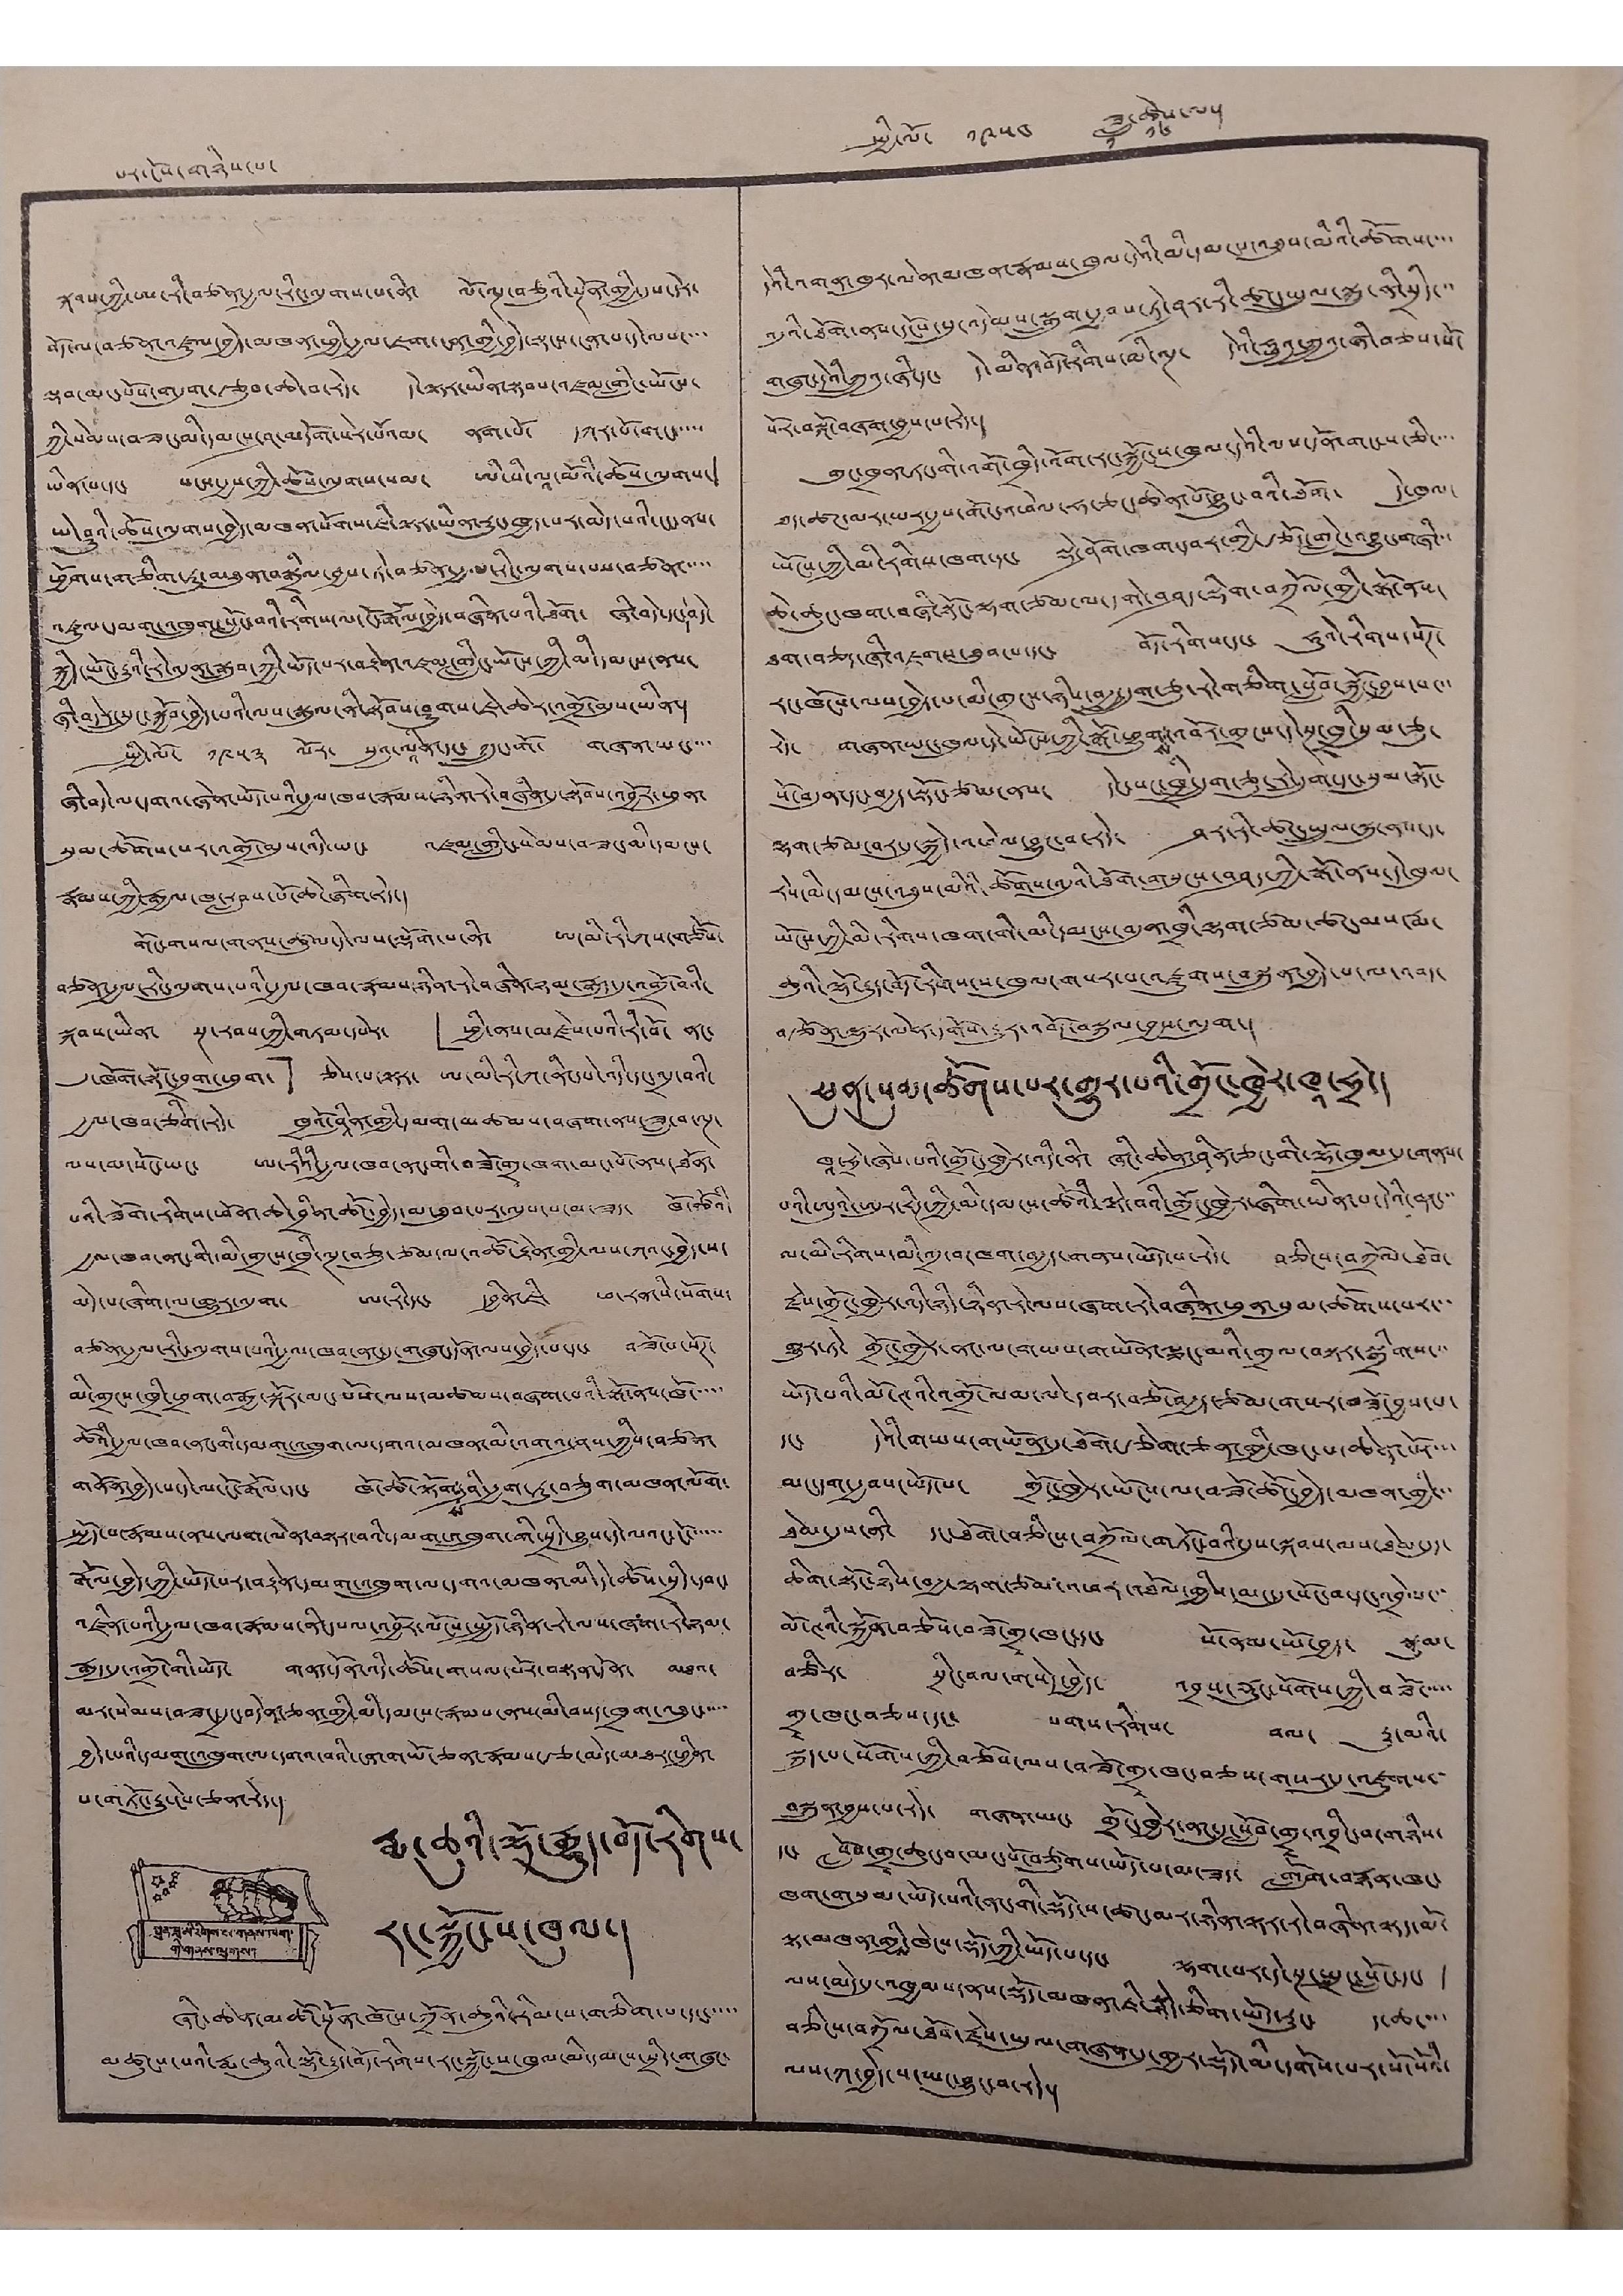པར་ངོས་གཉིས་པ་ སྤྱི་ལོ་ ༡༩༥༤ ཟླ་
༡
ཚེས་
༡༦
ལ་།
སྐབས་ཀྱི་ཨ་རི་བཙན་རྒྱལ་རིང་ལུགས་པ་ནི་ ལོ་ལྔ་བཅུའི་སྔོན་གྱི་དུས་དེར་
བོད་ལ་བཙན་འཛུལ་བྱེད་མཁན་ཕྱི་རྒྱལ་ཇག་ངན་གྱི་བྱེད་སྟངས་ངན་པ་དེ་ལས་་་
ལྡབ་མང་པོས་གདུག་རྩུབ་ཆེ་བ་རེད་ དེ་ལྟར་ཡིན་སྟབས་འཛམ་གླིང་ཡོངས་
ཀྱི་སེམས་བཟང་མི་དམངས་ཤ་མདོག་སེར་པོའམ་ ནག་པོ་ དཀར་པོ་གང་་་་
ཡིན་པ་དང་ སངས་རྒྱས་ཀྱི་ཆོས་ལུགས་སམ་ ཨི་སི་ལཱ་མོའི་ཆོས་ལུགས་
ཡེ་ཤུའི་ཆོས་ལུགས་བྱེད་མཁན་སོགས་ཇི་ལྟར་ཡིན་རུང་ཁྱད་པར་མེད་པའི་ངང་ནས་
ཕྱོགས་གཅིག་ཏུ་མཐུན་བསྒྲིལ་བྱས་ཏེ་བཙན་རྒྱལ་རིང་ལུགས་པས་བཙན་་་་
འཛུལ་དམག་འཁྲུག་སློང་བའི་རིགས་ལ་ངོ་རྒོལ་བྱེད་བཞིན་པའི་ཐོག་ ཞི་བདེ་དང་བདེ་
སྐྱིད་ཡོང་རྒྱུའི་རེ་འདུན་སྒྲུབ་ཀྱི་ཡོད་པར་བརྟེན་འཛམ་གླིང་ཡོངས་ཀྱི་མི་དམངས་ནས་
ཞི་བདེར་སྲུང་སྐྱོབ་བྱེད་པའི་ལས་སྒུལ་ནི་སྟོབས་ཤུགས་ཇེ་ཆེར་འགྲོ་མུས་ཡིན་
སྤྱི་ལོ་༡༩༥༣་ལོར་སུའུ་ལཱིན་དང་ ཀྲུང་གོ་ གཞན་ཡང་་་
ཞི་བདེ་ལ་དགའ་ཞེན་ཡོད་པའི་རྒྱལ་ཁབ་རྣམས་ཉིན་རེ་བཞིན་དུ་སྟོབས་འབྱོར་ཕུན་
སུམ་ཚོགས་པར་འགྲོ་མུས་འདི་ཡང་ འཛམ་གླིང་སེམས་བཟང་མི་དམངས་
རྣམས་ཀྱི་རྒྱལ་ཁ་རླབས་པོ་ཆེ་ཞིག་རེད་།
གོང་གསལ་གནས་ཚུལ་དེ་ལས་ལྡོག་པ་ནི་ ཨ་མི་རི་ཀས་གཙོས་
བཙན་རྒྱལ་རིང་ལུགས་པའི་རྒྱལ་ཁབ་རྣམས་ཉིན་རེ་བཞིན་ཉམ་རྒྱུད་དུ་འགྲོ་བའི་
སྐབས་ཡིན་ སྔ་རབས་ཀྱི་གཏམ་དཔེར་ 「ཕྱི་ནས་མཛེས་པའི་རི་བོ་ ནང་
དུ་ཁོག་སྟོང་བྲག་ཕུག་」 ཅེས་པ་ལྟར་ ཨ་མི་རི་ཀ་ནི་དཔེ་འདི་དང་འདྲ་བའི་
རྒྱལ་ཁབ་ཅིག་རེད། ཁྲའོ་ཤཱིན་གྱི་དམག་མཚམས་བཞག་ནས་ཟླ་བ་ལྔ་
ལས་མ་སོང་ཡང་ ཨ་རིའི་རྒྱལ་ཁབ་ནང་གི་བཟོ་གྲྭ་ཁག་མང་པོ་ནས་ཐོན་
པའི་ཟོག་རིགས་ཕོན་ཆེ་བྲིན་ཚོང་བྱེད་མ་ཐུབ་པར་ལུས་པ་མ་ཟད་ ཁོ་ཚོའི་
རྒྱལ་ཁབ་ནང་གི་མི་གྲངས་ཁྲི་ལྔ་བཅུ་ཙམ་ལ་འཚོ་རྟེན་གྱི་ལས་ཀའང་བྱེད་ས་
མེད་པ་ཞིག་ལ་གྱུར་འདུག་ ཨ་རི་དང་ དབྱིན་ཇི་ ཕ་རན་སི་སོགས་
བཙན་རྒྱལ་རིང་ལུགས་པའི་རྒྱལ་ཁབ་ནང་དུ་གཞུང་དོན་ལས་བྱེད་པ་དང་ བཟོ་པ་སོཊ་
མི་གྲངས་ཁྲི་ཕྲག་བརྒྱ་སྐོར་མང་པོས་ལས་མཚམས་བཞག་པའི་སྒོ་ནས་ཁོ་་་་་
ཚོའི་རྒྱལ་ཁབ་ནང་གི་དམག་འཁྲུག་ལ་དགའ་མཁན་མི་འགའ་ཤས་ཀྱིས་བཙན་
གནོན་བྱེད་པ་དེ་ལ་ངོ་རྒོལ་དང་ ཁོ་ཚོ་ལྟོག
ས
་ཤི་རྒྱག་ཏུ་བཅུག་མཁན་ལོག་
སྤྱོད་པ་རྣམས་ནས་ལག་ལེན་བསྟར་བའི་དམག་འཁྲུག་གི་སྲིད་བྱུས་དེ་ལའང་ངོ་་་་་་
རྒོལ་བྱེད་ཀྱི་ཡོད་པར་བརྟེན་དམག་འཁྲུག་ལ་དགའ་མཁན་མི་དེ་ཚོས་སྲིད་དབང་
འཛིན་པའི་རྒྱལ་ཁབ་རྣམས་ནི་དཔལ་འབྱོར་ལོངས་སྤྱོད་ཉིན་རེ་ལས་ཞག་རེ་ཉམ་
རྒུད་དུ་འགྲོ་གི་ཡོད་ གནད་དོན་འདི་ཚོས་གསལ་པོར་བསྟན་དོན་ མཐའ་
མར་སེམས་བཟང་དྲང་བདེན་ཅན་གྱི་མི་དམངས་རྣམས་ནས་མི་བསད་ཁྲག་འཐུང་་་་་
བྱེད་པའི་དམག་འཁྲུག་ལ་དགའ་བའི་ངན་ག་ཡོ་ཅན་རྣམས་རྩ་མེད་མཐར་ཕྱིན་
པ་གཏོང་རྒྱུ་ངེས་ཅན་རེད་།
སྤུན་ཟླ་མིའི་རིགས་ས་གནས་ཁག་
གི་གནས་ལུགས།
རྨ་ཆུའི་ལྷོ་རྒྱུད་བོད་རིགས་
རང་སྐྱོང་ས་ཁུལ་།
ཞིང་ཆེན་མཚོ་སྔོན་ཁོངས་ཀྲོན་ཆུའི་རིམ་པ་གཅིག་པ་དང་་་་་
མཚུངས་པའི་རྨ་ཆུའི་ལྷོ་རྒྱུད་བོད་རིགས་རང་སྐྱོང་ས་ཁུལ་མི་དམངས་སྲིད་གཞུང་
དེའི་འགན་ཁུར་ལེན་མཁན་རྣམས་ཁུལ་དེའི་མི་དམངས་འཐུས་མིའི་ཚོགས་་་་
འདུའི་ཐོག་ནས་དངོས་སུ་འདེམས་སྒྲུབ་རྒྱབ་པ་ཏེ་ཤར་རི་ཚང་སྤྲུལ་སྐུ་ནི་སྲིད་་་
གཞུང་དེའི་ཀྲུའུ་ཞི་དང་ དེ་མིན་བོད་རིགས་མི་ལྔ་ དེའི་ཧྥུའུ་ཀྲུའུ་ཞི་བཅས་སོ
སོར་བསྐོ་བཞག་བྱས་པ་རེད་།
གུང་ཁྲན་ཏང་གི་འགོ་ཁྲིད་འོག་རང་སྐྱོང་ས་ཁུལ་དེའི་ལས་དོན་གང་ས་ཅི་་་་
ཐད་ཚཊ་པར་མར་ཡར་རྒྱས་གོང་འཕེལ་ཧ་ཅང་ཆེན་པོ་བྱུང་བའི་ཐོག་ དེ་ཁུལ་
ཡོངས་ཀྱི་མི་རིགས་ཁག་དང་ ལྡེ་ཤོག་ཁག་དབར་གྱི་རྩོད་གླེང་འབྱུང་གཞི་་་
ཆེ་ཆུང་ཁག་བཞི་སྟོང་ལྷག་ཙམ་ལ་དགེ་བཤད་ལྡིག་བཀྲོལ་གྱི་སྒོ་ནས་
ཐག་བཅད་ཞི་འཇགས་ཐུབ་པ་དང་ བོད་རིགས་དང་ ཧུའེ་རིགས་སོཊ་
རང་ཁོངས་ལས་བྱེད་པ་མི་གྲངས་ཉིས་བརྒྱ་དྲུག་ཅུ་རེ་གཅིག་སློབ་སྐྱོང་བྱས་པ་་་
རེད་ གཞན་ཡང་ཁུལ་དེ་ཡོངས་ཀྱི་སྒོ་ཕྱུགས་འབོར་གྲངས་དེ་སྔ་ཁྲི་སུམ་ཅུ་
སོ་བདུན་དང་བརྒྱད་སྟོང་ཙམ་ནས་ དེང་སང་ཁྲི་དྲུག་ཅུ་རེ་དྲུག་དང་སུམ་སྟོང་
ལྷག་ཙམ་བར་དུ་སྐྱེ་འཕེལ་བྱུང་བ་རེད་ ཤར་རི་ཚང་སྤྲུལ་སྐུ་ནས་དང་
རེས་མི་དམངས་འཐུས་མིའི་ཚོགས་འདུའི་ཐོག་གསུངས་བཤད་ཀྱི་སྒོ་ནས་དེ་ཁུལ་
ཡོངས་ཀྱི་མི་རིགས་ཁག་གི་མི་དམངས་བདུན་ཁྲི་ལྷག་ཙམ་ཚང་མས་རྨ་
ཆུའི་ལྷོ་རྒྱུད་བོད་རིགས་ས་ཁུལ་གསར་པ་འཛུགས་བསྐྲུན་བྱེད་པ་ལ་འབད་
བརྩོན་ལྡུར་ལེན་དགོས་རྒྱུར་འབོད་བསྐུལ་བྱས་འདུག་
ཕུན་སུམ་ཚོགས་པར་གྱུར་བའི་གྲོང་ཁྱེར་ཁཱ་ཧྲེ་།
ཁཱ་ཧྲེ་ཞེས་པའི་གྲོང་ཁྱེར་འདི་ནི་ ཞིང་ཆེན་ཤིན་ཅང་གི་ལྷོ་ཁུལ་དུ་གནས་
པའི་ཨུའེ་ཨུར་རིཊ་ཀྱི་མི་དམངས་ཚོའི་ལྟེ་བའི་གྲོང་ཁྱེར་ཞིག་ཡིན་པ་དེའི་ནང་་་
ལ་མི་རིགས་མི་འདྲ་བ་ཁག་བརྒྱད་གནས་ཡོད་པ་རེད། བཅིངས་བཀྲོལ་ཐོབ་
རྗེས་གྲོང་ཁྱེར་འདི་ཉིད་ཉིན་རེ་ལས་ཞག་རེ་བཞིན་ཕུན་སུམ་ཚོགས་པར་་་
གྱུར་ཏེ་ གྲོང་ཁྱེར་ནང་ལ་གཡས་གཡོན་ལྕང་མའི་གྲལ་བསྟར་སྒྲིགས་་་
ཡོད་པའི་མོ་ཊའི་འགྲོ་ལམ་ལེ་དབར་བཅོ་བརྒྱད་ཙམ་གསར་བཟོ་བྱས་པ་
དང་ དེའི་གཡས་གཡོན་དུ་ཐོག་རྩེག་ཅན་གྱི་ཁང་པ་ཆེན་པོར་་་
མང་དག་རྒྱབས་ཡོད་པ་དང་ གྲོང་ཁྱེར་ཡོངས་ལ་བཟོ་ཚོང་བྱེད་མཁན་གྱི་་
ཐེམ་དུས་ནི་ དང་ཐོག་བཅིངས་བཀྲོལ་གཏོང་བའི་དུས་སྐབས་ལས་ཐེམ་དུད་
ཆིག་སྟོང་ཉིས་བརྒྱ་ལྷག་ཙམ་འཕར་འཐོལ་གྱིས་མང་དུ་སོང་བ་དང་འབྲེལ་་
མོ་ཊའི་སྐྱོན་བཅོས་བཟོ་གྲྭ་ཁང་དང་ སོ་ནམ་ཡོ་བྱད་ སྣུམ་
བཙིར་ སྲིང་བལ་གསེད་བྱེད་ འབྲས་རྡུང་སོགས་ཀྱི་བཟོ་་་་
གྲྭ་ཁང་བཅས་དང་ པགས་རིགས་ བལ་ རྒྱུ་མའི་
སྐུད་པ་སོགས་ཀྱི་བཅོས་ལས་བཟོ་གྲྭ་ཁང་བཅས་གསར་དུ་འཛུགས་་
བསྐྲུན་བྱས་པ་རེད་ གཞན་ཡང་ གྲོང་ཁྱེར་ནང་དུ་སློབ་གྲྭ་འབྲིང་བ་གཉིས་
དང་ སློབ་གྲྭ་ཆུང་བ་མང་པོ་བཙུགས་ཡོད་པ་མ་ཟད་ གློག་བརྙན་ཁང་
ཁག་གསུམ་ཡོད་པའི་ནང་གི་སྡོད་ས་ཚང་མར་ཉིན་ལྟར་རེ་བཞིན་ལྟད་མོ་
ལྟ་མཁན་གྱིས་ཁེངས་སྡོད་ཀྱི་ཡོད་པ་དང་ ལྷག་པར་དེ་སྔ་སྤྲང་སློང་དང་
ལས་མེད་དུ་འཁྱམས་ནས་སྡོད་མཁན་ཇི་སྙེད་ཅིག་ཡོད་རུང་ ད་ཆ་་་
བཅིངས་བཀྲོལ་ཐོབ་རྗེས་ཡུལ་གཞན་དུ་གྱར་སྡོད་མི་དགོས་པར་སོ་སོའི་
ལས་ཀ་བྱེད་ས་ཡང་བྱུང་བ་རེད།
